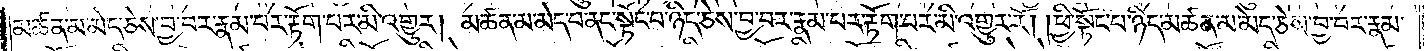མཚན་མ་མེད་ཅེས་བྱ་བར་རྣམ་པར་རྟོག་པར་མི་འགྱུར། མཚན་མ་མེད་པ་ནང་སྟོང་པ་ཉིད་ཅེས་བྱ་བར་རྣམ་པར་རྟོག་པར་མི་འགྱུར་རོ། །ཕྱི་སྟོང་པ་ཉིད་མཚན་མ་མེད་ཅེས་བྱ་བར་རྣམ་
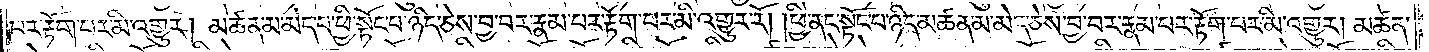པར་རྟོག་པར་མི་འགྱུར། མཚན་མ་མེད་པ་ཕྱི་སྟོང་པ་ཉིད་ཅེས་བྱ་བར་རྣམ་པར་རྟོག་པར་མི་འགྱུར་རོ། །ཕྱི་ནང་སྟོང་པ་ཉིད་མཚན་མ་མེད་ཅེས་བྱ་བར་རྣམ་པར་རྟོག་པར་མི་འགྱུར། མཚན་
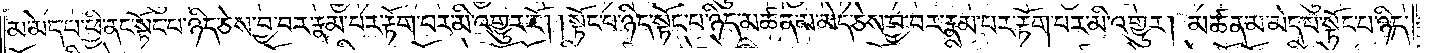མ་མེད་པ་ཕྱི་ནང་སྟོང་པ་ཉིད་ཅེས་བྱ་བར་རྣམ་པར་རྟོག་པར་མི་འགྱུར་རོ། སྟོང་པ་ཉིད་སྟོང་པ་ཉིད་མཚན་མ་མེད་ཅེས་བྱ་བར་རྣམ་པར་རྟོག་པར་མི་འགྱུར། མཚན་མ་མེད་པ་སྟོང་པ་ཉིད་
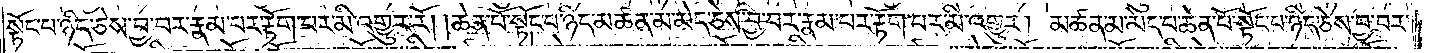སྟོང་པ་ཉིད་ཅེས་བྱ་བར་རྣམ་པར་རྟོག་པར་མི་འགྱུར་རོ། །ཆེན་པོ་སྟོང་པ་ཉིད་མཚན་མ་མེད་ཅེས་བྱ་བར་རྣམ་པར་རྟོག་པར་མི་འགྱུར། མཚན་མ་མེད་ཆེན་པོ་སྟོང་པ་ཉིད་ཅེས་བྱ་བར་
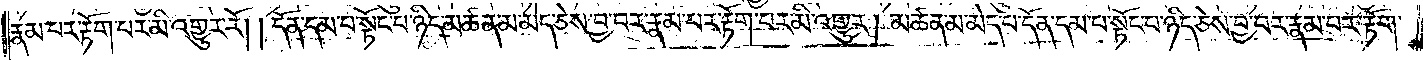རྣམ་པར་རྟོག་པར་མི་འགྱུར་རོ། །དོན་དམ་པ་སྟོང་པ་ཉིད་མཚན་མ་མེད་ཅེས་བྱ་བར་རྣམ་པར་རྟོག་པར་མི་འགྱུར། མཚན་མ་མེད་པ་དོན་དམ་པ་སྟོང་པ་ཉིད་ཅེས་བྱ་བར་རྣམ་པར་རྟོག་
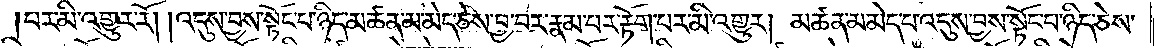པར་མི་འགྱུར་རོ། །འདུས་བྱས་སྟོང་པ་ཉིད་མཚན་མ་མེད་ཅེས་བྱ་བར་རྣམ་པར་རྟོག་པར་མི་འགྱུར། མཚན་མ་མེད་པ་འདུས་བྱས་སྟོང་པ་ཉིད་ཅེས་
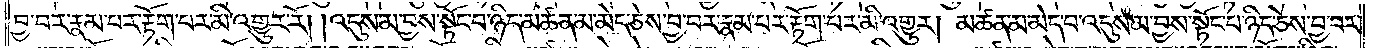བྱ་བར་རྣམ་པར་རྟོག་པར་མི་འགྱུར་རོ། །འདུས་མ་བྱས་སྟོང་པ་ཉིད་མཚན་མ་མེད་ཅེས་བྱ་བར་རྣམ་པར་རྟོག་པར་མི་འགྱུར། མཚན་མ་མེད་པ་འདུས་མ་བྱས་སྟོང་པ་ཉིད་ཅེས་བྱ་བར་
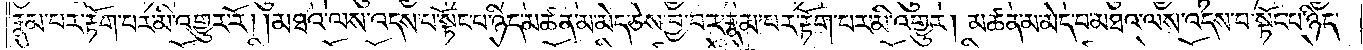རྣམ་པར་རྟོག་པར་མི་འགྱུར་རོ། །མཐའ་ལས་འདས་པ་སྟོང་པ་ཉིད་མཚན་མ་མེད་ཅེས་བྱ་བར་རྣམ་པར་རྟོག་པར་མི་འགྱུར། མཚན་མ་མེད་པ་མཐའ་ལས་འདས་པ་སྟོང་པ་ཉིད་
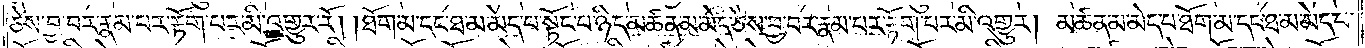ཅེས་བྱ་བར་རྣམ་པར་རྟོག་པར་མི་འགྱུར་རོ། །ཐོག་མ་དང་ཐ་མ་མེད་པ་སྟོང་པ་ཉིད་མཚན་མ་མེད་ཅེས་བྱ་བར་རྣམ་པར་རྟོག་པར་མི་འགྱུར། མཚན་མ་མེད་པ་ཐོག་མ་དང་ཐ་མ་མེད་པ་
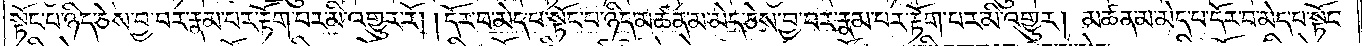སྟོང་པ་ཉིད་ཅེས་བྱ་བར་རྣམ་པར་རྟོག་པར་མི་འགྱུར་རོ། །དོར་བ་མེད་པ་སྟོང་པ་ཉིད་མཚན་མ་མེད་ཅེས་བྱ་བར་རྣམ་པར་རྟོག་པར་མི་འགྱུར། མཚན་མ་མེད་པ་དོར་བ་མེད་པ་སྟོང་
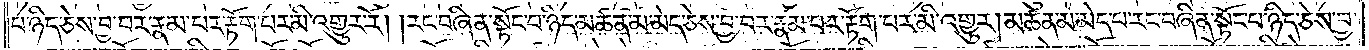པ་ཉིད་ཅེས་བྱ་བར་རྣམ་པར་རྟོག་པར་མི་འགྱུར་རོ། །རང་བཞིན་སྟོང་པ་ཉིད་མཚན་མ་མེད་ཅེས་བྱ་བར་རྣམ་པར་རྟོག་པར་མི་འགྱུར། མཚན་མ་མེད་པ་རང་བཞིན་སྟོང་པ་ཉིད་ཅེས་བྱ་
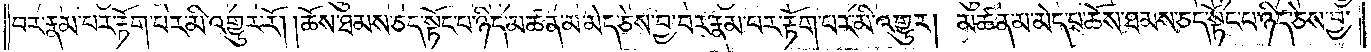བར་རྣམ་པར་རྟོག་པར་མི་འགྱུར་རོ། །ཆོས་ཐམས་ཅད་སྟོང་པ་ཉིད་མཚན་མ་མེད་ཅེས་བྱ་བར་རྣམ་པར་རྟོག་པར་མི་འགྱུར། མཚན་མ་མེད་པ་ཆོས་ཐམས་ཅད་སྟོང་པ་ཉིད་ཅེས་བྱ་
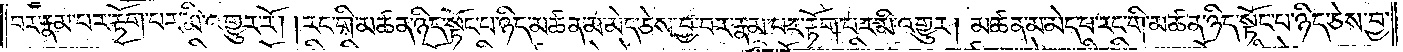བར་རྣམ་པར་རྟོག་པར་མི་འགྱུར་རོ། །རང་གི་མཚན་ཉིད་སྟོང་པ་ཉིད་མཚན་མ་མེད་ཅེས་བྱ་བར་རྣམ་པར་རྟོག་པར་མི་འགྱུར། མཚན་མ་མེད་པ་རང་གི་མཚན་ཉིད་སྟོང་པ་ཉིད་ཅེས་བྱ་
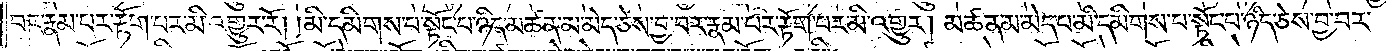བར་རྣམ་པར་རྟོག་པར་མི་འགྱུར་རོ། །མི་དམིགས་པ་སྟོང་པ་ཉིད་མཚན་མ་མེད་ཅེས་བྱ་བར་རྣམ་པར་རྟོག་པར་མི་འགྱུར། མཚན་མ་མེད་པ་མི་དམིགས་པ་སྟོང་པ་ཉིད་ཅེས་བྱ་བར་
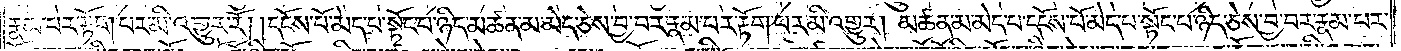རྣམ་པར་རྟོག་པར་མི་འགྱུར་རོ། །དངོས་པོ་མེད་པ་སྟོང་པ་ཉིད་མཚན་མ་མེད་ཅེས་བྱ་བར་རྣམ་པར་རྟོག་པར་མི་འགྱུར། མཚན་མ་མེད་པ་དངོས་པོ་མེད་པ་སྟོང་པ་ཉིད་ཅེས་བྱ་བར་རྣམ་པར་
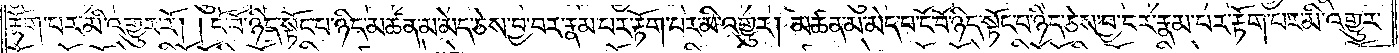རྟོག་པར་མི་འགྱུར་རོ། །ངོ་བོ་ཉིད་སྟོང་པ་ཉིད་མཚན་མ་མེད་ཅེས་བྱ་བར་རྣམ་པར་རྟོག་པར་མི་འགྱུར། མཚན་མ་མེད་པ་ངོ་བོ་ཉིད་སྟོང་པ་ཉིད་ཅེས་བྱ་བར་རྣམ་པར་རྟོག་པར་མི་འགྱུར་
